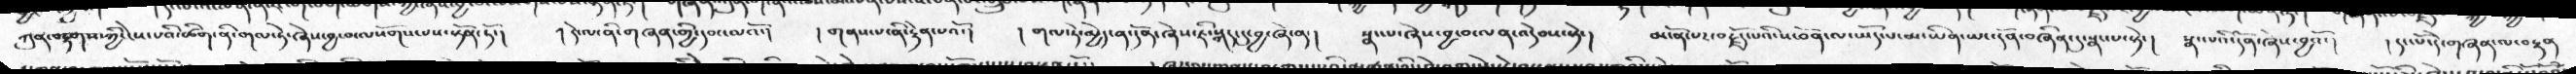ཀུན་བརྟགས་ཀྱི་ངེས་པའི་ཚིག་ནི་གལ་ཏེ་ཞེས་བྱ་བ་ལསོགས་པས་སྟོན་ཏོད།    །དེ་ལ་ནི་གཞན་གྱི་དབང་ལའོ་།   །གནས་པ་ནི་རྟེན་པའོ་།   །གལ་ཏེ་མྱེད་ན་དོན་ཞེས་ཇི་སྐད་དུ་བྱ་ཞེ་ན་།    སྣང་པ་ཞེས་བྱ་བ་ལན་འདེབས་སྟེ་།    མངོན་པར་བརྗོད་པའི་ས་བོན་ལ་ཡོད་པ་མ་ཡིན་ཡང་དོན་བཞིན་དུ་སྣང་པ་སྟེ་།   སྣང་པའི་དོན་ཞེས་བྱའོ་།     །དང་པོ་དེ་གཞན་ལ་བརྟན
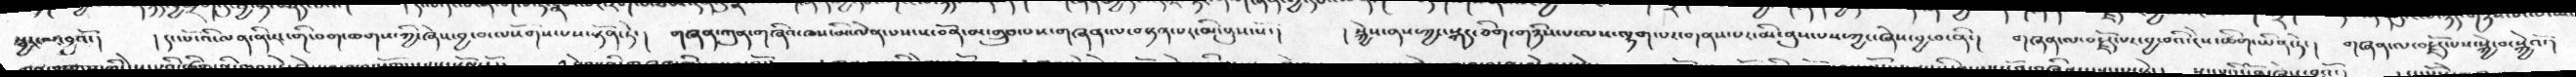སྦྱར་ལ་བྱའོ་།    །དང་པོ་འི་ལན་ནི་རང་གི་བག་ཆགས་ཀྱི་ཞེས་བྱ་བ་ལསོགས་པས་སྟོན་ཏེ་།   གཞན་ཀུན་གཞིའ་ཁས་མི་ལེན་པས་ས་བོན་མ་གྲུབ་པས་གཞན་ལ་བསྟན་པར་མི་ནུས་སོ་།    །སྐྱེས་ནས་ཀྱང་སྐད་ཅིག་གཉིས་པ་ལས་ལྷག་པར་གནས་པར་མི་ནུས་པས་ཀྱང་ཞེས་བྱ་བ་ནི་།   གཞན་ལ་བརྗོད་པར་བྱ་བའི་ངེས་ཚིག་ཡིན་ཏེ་།   གཞན་ལ་བརྗོད་པས་སྐྱེ་བ་སྐྱེའོ་།
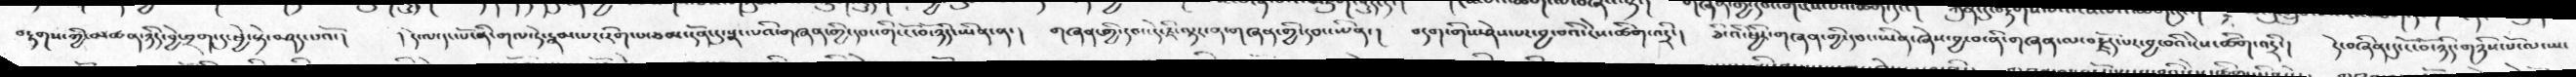བརྟགས་ཀྱི་མཚན་ཉིད་བྱེ་བྲག་དུ་ཕྱེ་སྟེ་བཤད་པའོ་།     །དེ་ལ་དང་པོ་ནི་གལ་ཏེ་རྣམ་པར་རིག་པ་ཙམ་དོན་དུ་སྣང་པའི་གཞན་གྱི་དབང་གི་ངོ་བོ་ཉིད་ཡིན་ན་།   གཞན་གྱི་དབང་དེ་ཇི་ལྟར་ན་གཞན་གྱི་དབང་ཡིན་།   བདག་གིས་ཤེས་པར་བྱ་བའི་ངེས་ཚིག་འདྲི་།   ཅི་འི་ཕྱིར་གཞན་གྱི་དབང་ཡིན་ཞེས་བྱ་བ་ནི་གཞན་ལ་བརྗོད་པར་བྱ་བའི་ངེས་ཚིག་འདྲི་།   དེ་བཞིན་དུ་ངོ་བོ་ཉིད་གཉིས་པོ་ལ་ཡང
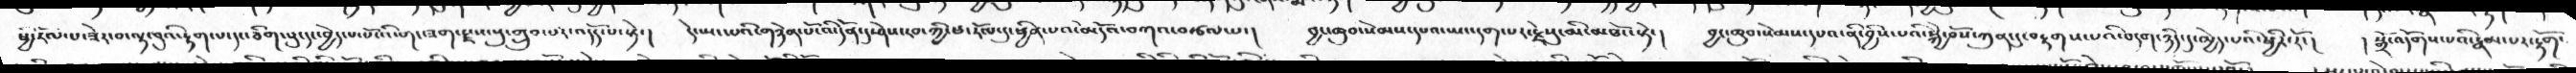ཕྱི་རོལ་པ་ཟེར་བ་ལྟ་བུའི་རྟག་པ་དང་ཅིག་པུ་དང་བྱེད་པ་པོ་འི་གང་ཟག་རྫས་སུ་གྲུབ་པར་འདོད་པ་སྟེ་།    དེ་སྤང་པའི་གཉེན་པོ་འི་དོན་དུ་ཤེས་རབ་ཀྱི་ཕ་རོལ་དུ་ཕྱིན་པའི་མདོའ་བཀའ་བརྩལ་པ་།    བྱང་ཆུབ་སེམས་དཔའ་ཡང་དག་པར་རྗེསུ་མི་མཐོང་སྟེ་།    བྱང་ཆུབ་སེམས་དཔའ་ནི་བྱིས་པའི་སྐྱེ་བོས་ཀུན་དུ་བརྟགས་པའི་བདག་ཉིད་དུ་མྱེད་པའི་ཕྱིར་རོ་།    ། སྒྲོ་འདོགས་པའི་རྣམ་པར་རྟོག་
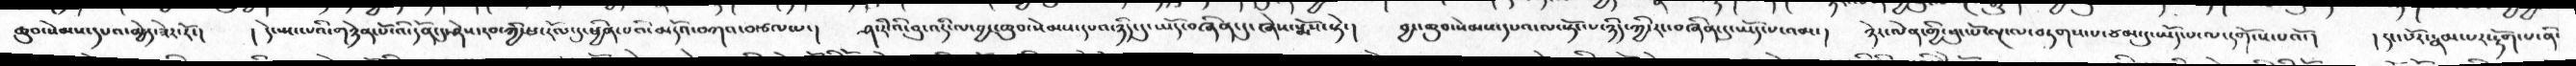ཆུབ་སེམས་དཔའ་མྱེད་ཟེར་རོ་།    ། དེ་སྤང་པའི་གཉེན་པོ་འི་དོན་དུ་ཤེས་རབ་ཀྱི་ཕ་རོལ་དུ་ཕྱིན་པའི་མདོའ་བཀའ་བརྩལ་པ་།   ཤ་རི་འི་བུ་འདི་ལ་བྱང་ཆུབ་སེམས་དཔའ་ཉིད་དུ་ཡོད་བཞིན་དུ་ཞེས་སྨོས་ཏེ་།   བྱང་ཆུབ་སེམས་དཔའ་ལ་སྟོང་པ་ཉིད་ཀྱི་རང་བཞིན་དུ་ཡོད་པ་འམ་།   ཉེར་ལེན་གྱི་ཕུང་པོ་ལྔ་ལ་བཏགས་པ་ཙམ་དུ་ཡོད་པ་ལ་དགོངས་པའོ་།    །དང་པོར་རྣམ་པར་རྟོག་པ་ནི་
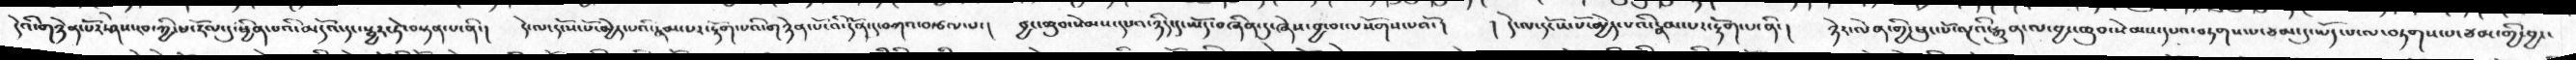དེའི་གཉེན་པོར་ཤེས་རབ་ཀྱི་ཕ་རོལ་དུ་ཕྱིན་པའི་མདོའ་དང་སྦྱར་ཏེ་བསྟན་པ་ནི་།   དེ་ལ་དངོས་པོ་མྱེད་པའི་རྣམ་པར་རྟོག་པའི་གཉེན་པོ་འི་དོན་དུ་བཀའ་བརྩལ་པ་།   བྱང་ཆུབ་སེམས་དཔའ་ཉིད་དུ་ཡོད་བཞིན་དུ་ཞེས་བྱ་བ་ལསོགས་པའོ་།   ། དེ་ལ་དངོས་པོ་མྱེད་པའི་རྣམ་པར་རྟོག་པ་ནི་།   ཉེར་ལེན་གྱི་ཕུང་པོ་ལྔའི་རྒྱུན་ལ་བྱང་ཆུབ་སེམས་དཔའ་བཏགས་པ་ཙམ་དུ་ཡོད་པ་ལ་བཏགས་པ་ཙམ་གྱི་བྱ་།
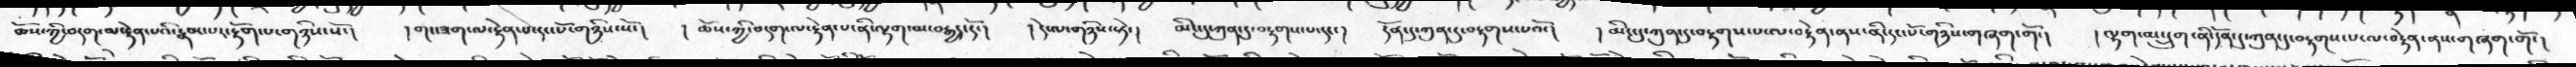ཆོས་ཀྱི་བདག་ལ་རྟེན་པའི་རྣམ་པར་རྟོག་པ་གཉིས་སོ་།   །གང་ཟག་ལ་རྟེན་པ་དང་པོ་གཉིས་སོ་།   ། ཆོས་ཀྱི་བདག་ལ་རྟེན་པ་ནི་ལྷག་མ་བརྒྱད་དོ་།   ། དེ་ལ་གཉིས་ཏེ་།  མིང་དུ་ཀུན་དུ་བརྟགས་པ་དང་།  དོན་དུ་ཀུན་དུ་བརྟགས་པའོ་།  ། མིང་དུ་ཀུན་དུ་བརྟགས་པ་ལ་བརྟེན་ནས་ནི་དང་པོ་གཉིས་གཞག་གོ་།   ། ལྷག་མ་དྲུག་ནི་དོན་དུ་ཀུན་དུ་བརྟགས་པ་ལ་བརྟེན་ནས་གཞག་གོ་།
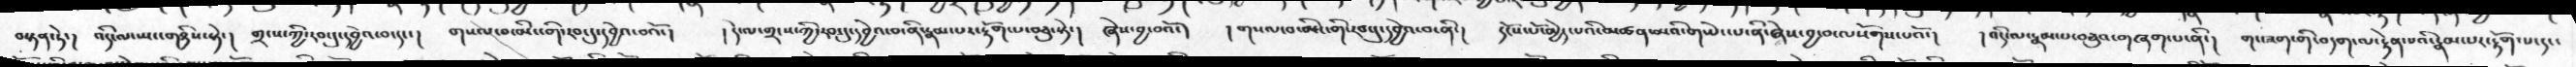བསྟན་ཏེ་།   འདི་ལ་ཡང་གཉིས་སྟེ་།  གྲངས་ཀྱི་རབ་དུ་དབྱེའ་བ་དང་།  གསལ་བ་མིང་གི་རབ་དུ་དབྱེའ་བའོ་།  ། དེ་ལ་གྲངས་ཀྱི་རབ་དུ་དབྱེའ་བ་ནི་རྣམ་པར་རྟོག་པ་བཅུ་སྟེ་།  ཞེས་བྱ་བའོ་།  ། གསལ་བ་མིང་གི་རབ་དུ་དབྱེའ་བ་ནི་།  དངོས་པོ་མྱེད་པའི་མཚན་མའི་གཡེང་པ་ནི་ཞེས་བྱ་བ་ལསོགས་པའོ་།   ། འདི་ལ་རྣམ་པ་བཅུའ་གཞག་པ་ནི་།  གང་ཟག་གི་བདག་ལ་རྟེན་པའི་རྣམ་པར་རྟོག་པ་དང་
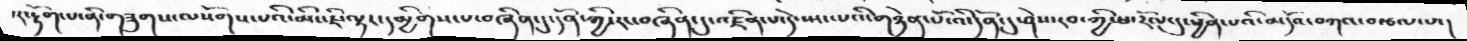པར་རྟོག་པ་ནི་གཟུགས་ལསོགས་པའི་མིང་ཇི་ལྟར་དམྱིགས་པ་བཞིན་དུ་དོན་ཀྱི་རང་བཞིན་དུ་འཛིན་པ་དེ་སྤང་པའི་གཉེན་པོ་འི་དོན་དུ་ཤེས་རབ་ཀྱི་ཕ་རོལ་དུ་ཕྱིན་པའི་མདོའ་བཀའ་བརྩལ་པ་།
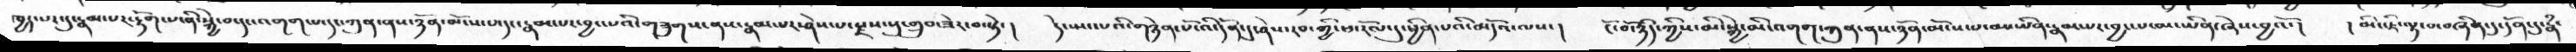ཁྱད་པར་དུ་རྣམ་པར་རྟོག་པ་ནི་སྐྱེ་བ་དང་འགག་པ་དང་ཀུན་ནས་ཉོན་མོངས་པ་དང་རྣམ་པར་བྱང་པའི་གཟུགས་ནས་རྣམ་པར་ཤེས་པ་རྫས་སུ་གྲུབ་ཟེར་བ་སྟེ་།    དེ་སྤང་པའི་གཉེན་པོ་འི་དོན་དུ་ཤེས་རབ་གྱི་ཕ་རོལ་དུ་ཕྱིན་པའི་མདོའ་ལས་།    ངོ་བོ་ཉིད་ཀྱིས་མི་སྐྱེ་མི་འགག་ཀུན་ནས་ཉོན་མོངས་པ་མ་ཡིན་རྣམ་པར་བྱང་པ་མ་ཡིན་ཞེས་བྱའོ་།   ། མིང་ཇི་ལྟ་བ་བཞིན་དུ་དོན་དུ་རྣཾ་
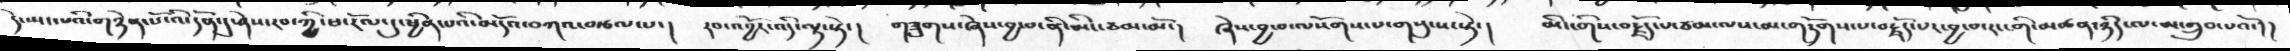དེ་སྤང་པའི་གཉེན་པོ་འི་དོན་དུ་ཤེས་རབ་ཀྱི་ཕ་རོལ་དུ་ཕྱིན་པའི་མདོའ་བཀའ་བརྩལ་པ་།    རབ་འབྱོར་འདི་ལྟ་སྟེ་།   གཟུགས་ཞེས་བྱ་བ་ནི་མིང་ཙམ་མོ་།   ཞེས་བྱ་བ་ལསོགས་པ་གསུངས་སྟེ་།   མིང་གིས་བརྗོད་པ་ཙམ་ལས་མ་གཏོགས་པ་བརྗོད་པར་བྱ་བ་རང་གི་མཚན་ཉིད་ལ་མ་གྲུབ་པའོ་།།
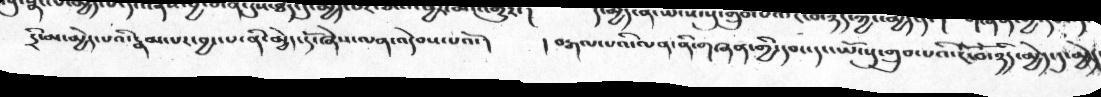དྲི་མ་མྱེད་པའི་རྣམ་པར་བྱང་པ་ནི་མྱེད་དོ་ཞེས་ལན་འདེབས་པའོ་།    ། བརྒལ་པའི་ལན་ནི་གཞན་གྱི་དབང་དང་ཡོངསུ་གྲུབ་པའི་ངོ་བོ་ཉིད་མྱེད་དུ་མྱེད
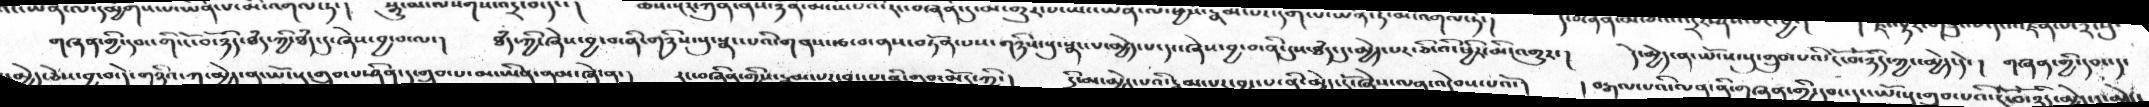གཞན་གྱི་དབང་གི་ངོ་བོ་ཉིད་ཐཾད་ཀྱི་ཐཾད་དུ་ཞེས་བྱ་བ་ལ་།    ཐཾད་ཀྱི་ཞེས་བྱ་བ་ནི་གཉིས་སུ་སྣང་པའི་གནས་རྩ་བ་ནས་བཏོན་པས་གཉིས་སུ་སྣང་པ་མྱེད་པ་དང་ཞེས་བྱ་བ་ནི་དུས་ཐཾད་དུ་མྱེད་པར་ཅི་འི་ཕྱིར་མི་འགྱུར་།    དེ་མྱེད་ན་ཡོངས་སུ་གྲུབ་པའི་ངོ་བོ་ཉིད་ཀྱང་མྱེད་དེ་།  གཞན་གྱི་དབང་དུ་
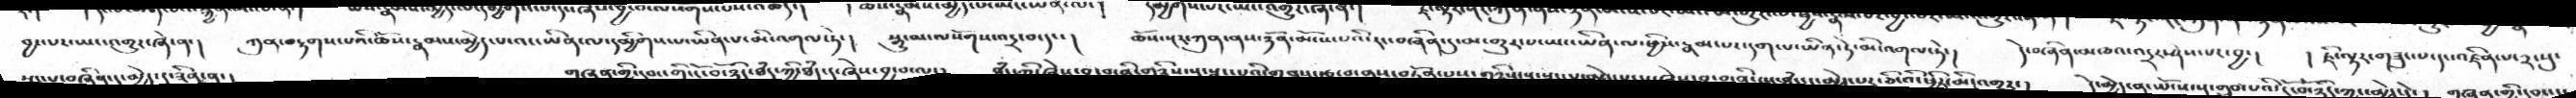བྱང་པར་ཡང་འགྱུར་ཞེ་ན་།   ཀུན་བརྟགས་པའི་ཆོས་རྣམས་མྱེད་པ་འང་ཡིན་ལ་དམྱིགས་པ་ཡིན་པ་མི་འགལ་ཏེ་།   སྒྱུ་མ་ལསོགས་འདྲ་བ་དང་།    ཆོས་སྔར་ཀུན་ནས་ཉོན་མོངས་པའི་རང་བཞིན་དུ་མ་གྱུར་པ་ཡང་ཡིན་ལ་ཕྱིས་རྣམ་པར་དག་པ་ཡིན་ཏེ་མི་འགལ་ཏེ་།    དེ་བཞིན་མཁའ་འདྲར་ཤེས་པར་བྱ་།    །ཇི་ལྟར་གཟུང་པ་དང་འཛིན་པ་༢་སུ་
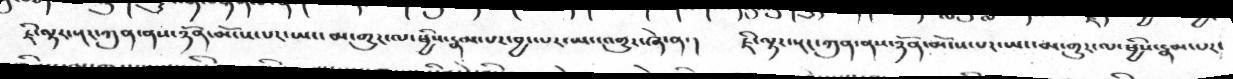ཇི་ལྟར་སྔར་ཀུན་ནས་ཉོན་མོངས་པར་ཡང་མ་གྱུར་ལ་ཕྱིས་རྣམ་པར་བྱང་པར་ཡང་འགྱུར་ཞེ་ན་།   ཇི་ལྟར་སྔར་ཀུན་ནས་ཉོན་མོངས་པར་ཡང་མ་གྱུར་ལ་ཕྱིས་རྣམ་པར་
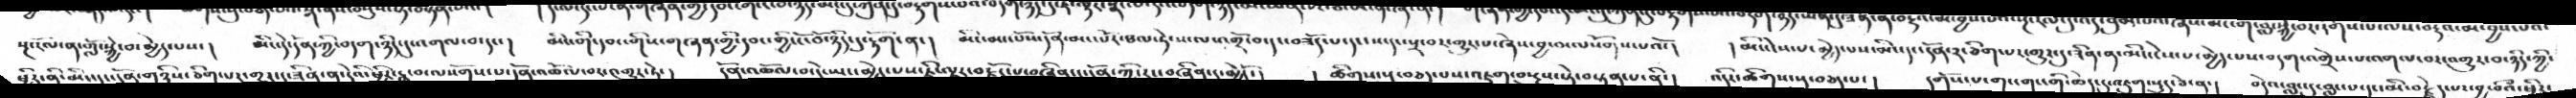སྔ་རོལ་ན་གློ་སྐྱེ་བ་མྱེད་པས་།   མིང་དེ་དོན་ཀྱི་བདག་ཉིད་དུ་འགལ་བ་དང་།   མིང་གི་དབང་གིས་གཞན་གྱི་དབང་གྱི་ངོ་བོ་ཉིད་དུ་རྟོག་ན་།   མིང་མང་པོས་དོན་མང་པོར་ཐལ་ཏེ་ས་ལ་འགྲོ་བ་དང་བཟོད་པ་དང་ས་དང་སྲ་བར་གྱུར་པ་ཞེས་བྱ་བ་ལསོགས་པའོ་།    ། མིང་ངེས་པ་མྱེད་པས་མིང་དང་དོན་༢་ཅིག་པར་གྱུར་དུ་ཟིན་ན་མིང་ངེས་པ་མྱེད་པས་བདག་འགྲེས་པ་འགལ་བར་འགྱུར་བ་ཉིད་ཀྱི་
